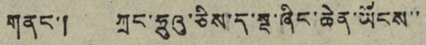གནང་། ཀྲུང་ཧྲུའུ་ཅིས་ད་སྔ་ཞིང་ཆེན་ཡོངས་་
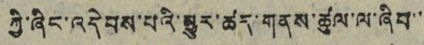ཀྱི་ཞིང་འདེབས་པའི་མྱུར་ཚད་གནས་ཚུལ་ལ་ཞིབ་་
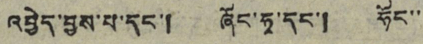འབྱེད་བྱས་པ་དང་། ཞོང་ཧྭ་དང་། ཧོང་་
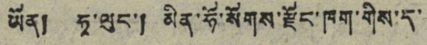ཡོན། ཧཱ་ལུང་། མིན་ཧོ་སོགས་རྫོང་ཁག་གིས་ད་
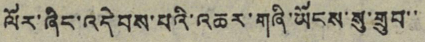ལོར་ཞིང་འདེབས་པའི་འཆར་གཞི་ཡོངས་སུ་གྲུབ་་
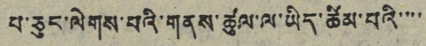པ་ཅུང་ལེགས་པའི་གནས་ཚུལ་ལ་ཡིད་ཚིམ་པའི་་་་
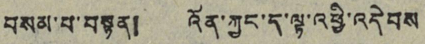བསམ་པ་བསྟན། འོན་ཀྱང་ད་ལྟ་འཕྱི་འདེབས
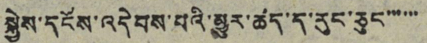སྐྱེས་དངོས་འདེབས་པའི་མྱུར་ཚད་ད་རུང་ཅུང་་་་་་
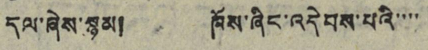དལ་ཞེས་སྙམ། ཁོས་ཞིང་འདེབས་པའི་་་་་
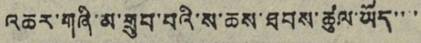འཆར་གཞི་མ་གྲུབ་པའི་ས་ཆས་ཐབས་ཚུལ་ཡོད་་་་
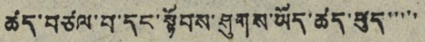ཚད་བཙལ་བ་དང་སྟོབས་ཤུགས་ཡོད་ཚད་ཕུད་་་་་
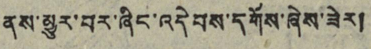ནས་མྱུར་བར་ཞིང་འདེབས་དགོས་ཞེས་ཟེར།
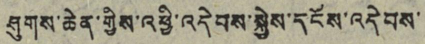ཤུགས་ཆེན་གྱིས་འཕྱི་འདེབས་སྐྱེས་དངོས་འདེབས་
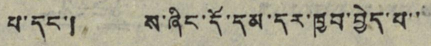པ་དང་། ས་ཞིང་དོ་དམ་དར་ཁྱབ་བྱེད་པ་་་་
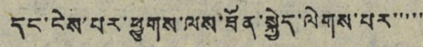དང་ངེས་པར་ཕྱུགས་ལས་ཐོན་སྐྱེད་ལེགས་པར་་་་་
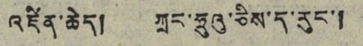འཛིན་ཆེད། ཀྲུང་ཧྲུའུ་ཅིས་ད་རུང་།
